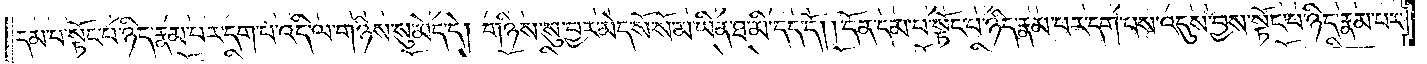དམ་པ་སྟོང་པ་ཉིད་རྣམ་པར་དག་པ་འདི་ལ་གཉིས་སུ་མེད་དེ། གཉིས་སུ་བྱར་མེད་སོ་སོ་མ་ཡིན་ཐ་མི་དད་དོ། །དོན་དམ་པ་སྟོང་པ་ཉིད་རྣམ་པར་དག་པས་འདུས་བྱས་སྟོང་པ་ཉིད་རྣམ་པར་
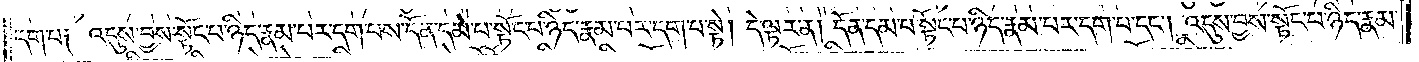དག་པ། འདུས་བྱས་སྟོང་པ་ཉིད་རྣམ་པར་དག་པས་དོན་དམ་པ་སྟོང་པ་ཉིད་རྣམ་པར་དག་པ་སྟེ། དེ་ལྟར་ན། དོན་དམ་པ་སྟོང་པ་ཉིད་རྣམ་པར་དག་པ་དང༌། འདུས་བྱས་སྟོང་པ་ཉིད་རྣམ་
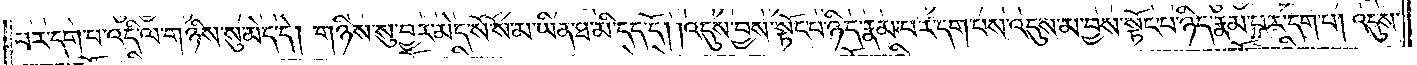པར་དག་པ་འདི་ལ་གཉིས་སུ་མེད་དེ། གཉིས་སུ་བྱར་མེད་སོ་སོ་མ་ཡིན་ཐ་མི་དད་དོ། །འདུས་བྱས་སྟོང་པ་ཉིད་རྣམ་པར་དག་པས་འདུས་མ་བྱས་སྟོང་པ་ཉིད་རྣམ་པར་དག་པ། འདུས་
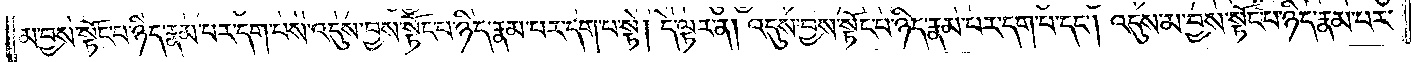མ་བྱས་སྟོང་པ་ཉིད་རྣམ་པར་དག་པས་འདུས་བྱས་སྟོང་པ་ཉིད་རྣམ་པར་དག་པ་སྟེ། དེ་ལྟར་ན། འདུས་བྱས་སྟོང་པ་ཉིད་རྣམ་པར་དག་པ་དང༌། འདུས་མ་བྱས་སྟོང་པ་ཉིད་རྣམ་པར་
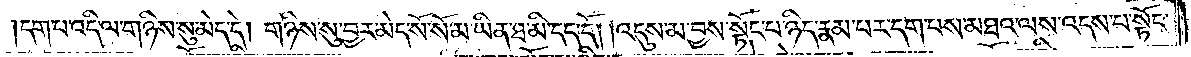དག་པ་འདི་ལ་གཉིས་སུ་མེད་དེ། གཉིས་སུ་བྱར་མེད་སོ་སོ་མ་ཡིན་ཐ་མི་དད་དོ། །འདུས་མ་བྱས་སྟོང་པ་ཉིད་རྣམ་པར་དག་པས་མཐའ་ལས་འདས་པ་སྟོང་
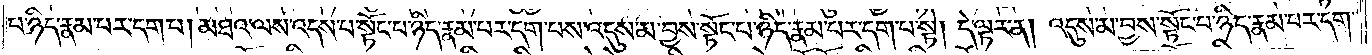པ་ཉིད་རྣམ་པར་དག་པ། མཐའ་ལས་འདས་པ་སྟོང་པ་ཉིད་རྣམ་པར་དག་པས་འདུས་མ་བྱས་སྟོང་པ་ཉིད་རྣམ་པར་དག་པ་སྟེ། དེ་ལྟར་ན། འདུས་མ་བྱས་སྟོང་པ་ཉིད་རྣམ་པར་དག་
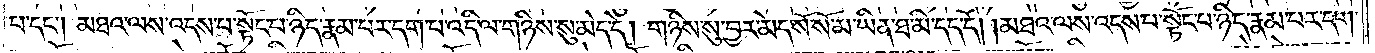པ་དང༌། མཐའ་ལས་འདས་པ་སྟོང་པ་ཉིད་རྣམ་པར་དག་པ་འདི་ལ་གཉིས་སུ་མེད་དེ། གཉིས་སུ་བྱར་མེད་སོ་སོ་མ་ཡིན་ཐ་མི་དད་དོ། །མཐའ་ལས་འདས་པ་སྟོང་པ་ཉིད་རྣམ་པར་དག་
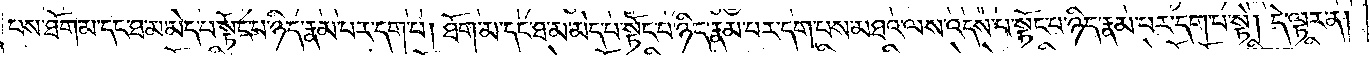པས་ཐོག་མ་དང་ཐ་མ་མེད་པ་སྟོང་པ་ཉིད་རྣམ་པར་དག་པ། ཐོག་མ་དང་ཐ་མ་མེད་པ་སྟོང་པ་ཉིད་རྣམ་པར་དག་པས་མཐའ་ལས་འདས་པ་སྟོང་པ་ཉིད་རྣམ་པར་དག་པ་སྟེ། དེ་ལྟར་ན།
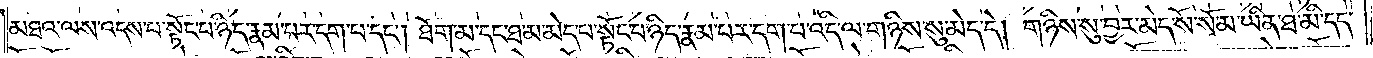མཐའ་ལས་འདས་པ་སྟོང་པ་ཉིད་རྣམ་པར་དག་པ་དང༌། ཐོག་མ་དང་ཐ་མ་མེད་པ་སྟོང་པ་ཉིད་རྣམ་པར་དག་པ་འདི་ལ་གཉིས་སུ་མེད་དེ། གཉིས་སུ་བྱར་མེད་སོ་སོ་མ་ཡིན་ཐ་མི་དད་
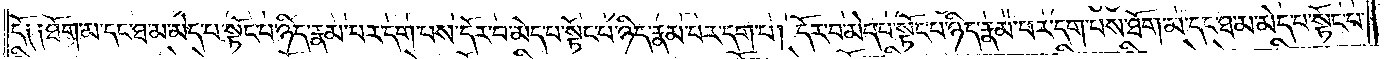དོ། །ཐོག་མ་དང་ཐ་མ་མེད་པ་སྟོང་པ་ཉིད་རྣམ་པར་དག་པས་དོར་བ་མེད་པ་སྟོང་པ་ཉིད་རྣམ་པར་དག་པ། དོར་བ་མེད་པ་སྟོང་པ་ཉིད་རྣམ་པར་དག་པས་ཐོག་མ་དང་ཐ་མ་མེད་པ་སྟོང་པ་
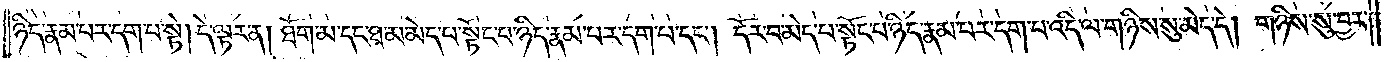ཉིད་རྣམ་པར་དག་པ་སྟེ། དེ་ལྟར་ན། ཐོག་མ་དང་ཐ་མ་མེད་པ་སྟོང་པ་ཉིད་རྣམ་པར་དག་པ་དང༌། དོར་བ་མེད་པ་སྟོང་པ་ཉིད་རྣམ་པར་དག་པ་འདི་ལ་གཉིས་སུ་མེད་དེ། གཉིས་སུ་བྱར་
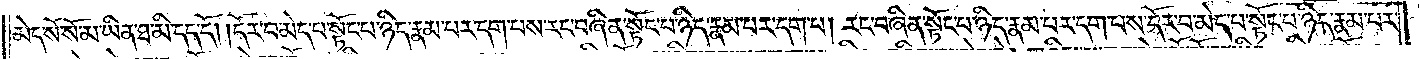མེད་སོ་སོ་མ་ཡིན་ཐ་མི་དད་དོ། །དོར་བ་མེད་པ་སྟོང་པ་ཉིད་རྣམ་པར་དག་པས་རང་བཞིན་སྟོང་པ་ཉིད་རྣམ་པར་དག་པ། རང་བཞིན་སྟོང་པ་ཉིད་རྣམ་པར་དག་པས་དོར་བ་མེད་པ་སྟོང་པ་ཉིད་རྣམ་པར་
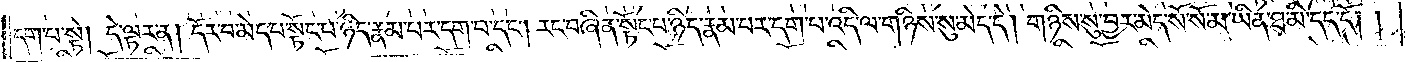དག་པ་སྟེ། དེ་ལྟར་ན། དོར་བ་མེད་པ་སྟོང་པ་ཉིད་རྣམ་པར་དག་པ་དང༌། རང་བཞིན་སྟོང་པ་ཉིད་རྣམ་པར་དག་པ་འདི་ལ་གཉིས་སུ་མེད་དེ། གཉིས་སུ་བྱར་མེད་སོ་སོ་མ་ཡིན་ཐ་མི་དད་དོ། །
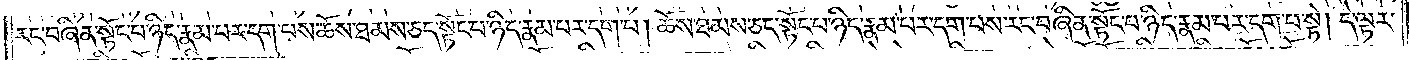རང་བཞིན་སྟོང་པ་ཉིད་རྣམ་པར་དག་པས་ཆོས་ཐམས་ཅད་སྟོང་པ་ཉིད་རྣམ་པར་དག་པ། ཆོས་ཐམས་ཅད་སྟོང་པ་ཉིད་རྣམ་པར་དག་པས་རང་བཞིན་སྟོང་པ་ཉིད་རྣམ་པར་དག་པ་སྟེ། དེ་ལྟར་
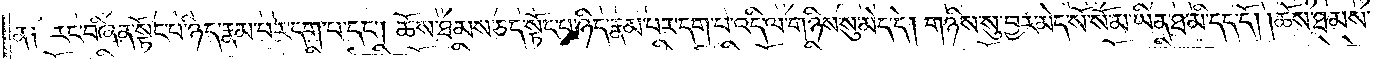ན། རང་བཞིན་སྟོང་པ་ཉིད་རྣམ་པར་དག་པ་དང༌། ཆོས་ཐམས་ཅད་སྟོང་པ་ཉིད་རྣམ་པར་དག་པ་འདི་ལ་གཉིས་སུ་མེད་དེ། གཉིས་སུ་བྱར་མེད་སོ་སོ་མ་ཡིན་ཐ་མི་དད་དོ། །ཆོས་ཐམས་
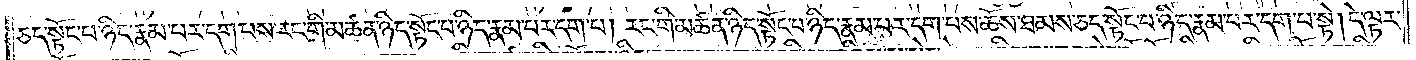ཅད་སྟོང་པ་ཉིད་རྣམ་པར་དག་པས་རང་གི་མཚན་ཉིད་སྟོང་པ་ཉིད་རྣམ་པར་དག་པ། རང་གི་མཚན་ཉིད་སྟོང་པ་ཉིད་རྣམ་པར་དག་པས་ཆོས་ཐམས་ཅད་སྟོང་པ་ཉིད་རྣམ་པར་དག་པ་སྟེ། དེ་ལྟར་
